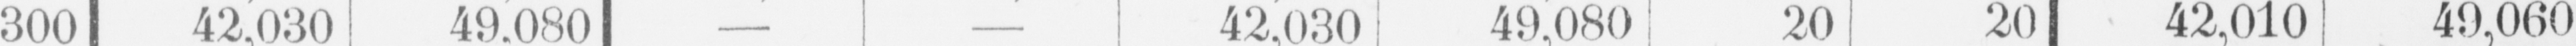300 42,030 49,080 — — 42,030 49,080 20 20 42,010 49,060
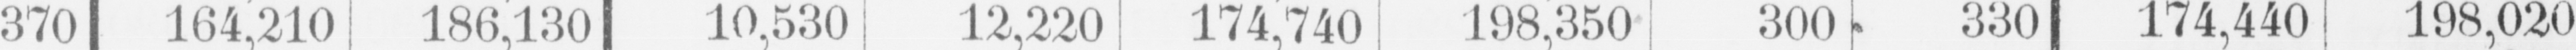370 164,210 186,130 10,530 12,220 174,740 198,350 300 330 174,440 198,020
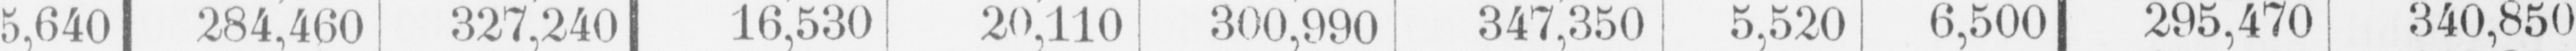5,640 284,460 327,240 16,530 20,110 300,990 347,350 5,520 6,500 295,470 340,850
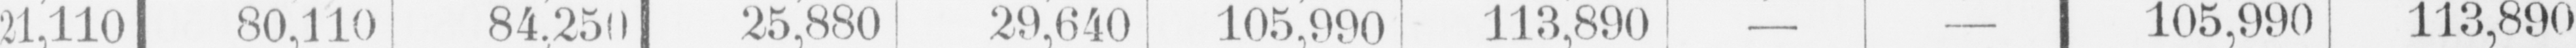21.110 80,110 84,250 25,880 29,640 105,990 113,890 — — 105,990 113,890
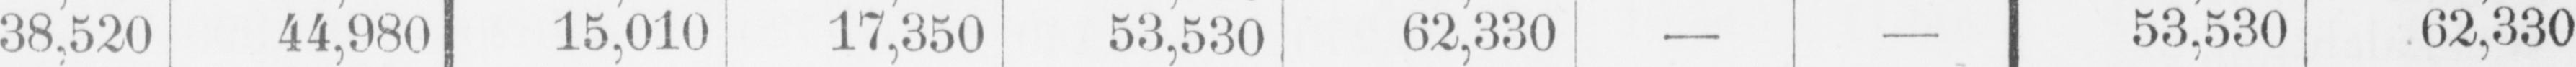— 38,520 44,980 15,010 17,350 53,530, 62,330 — — 53,530 62,330
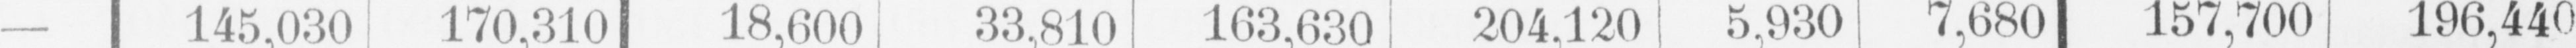— 145,030 170,310 18,600 33,810 163,630 204,120 5,930 7,680 157,700 196,440
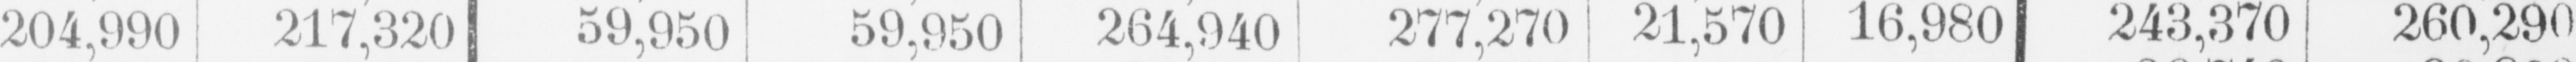— 204,990 217,320 59,950 59,950 264,940 277,270 21,570 16,980 243,370 260,290
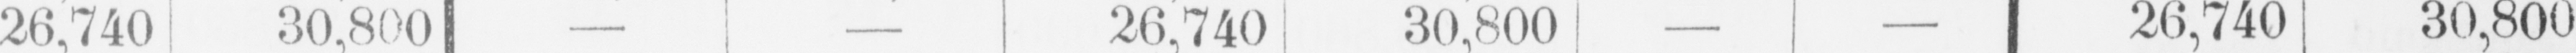— 26,740 30,800 — — 26,740 30,800 — — 26,740 30,800
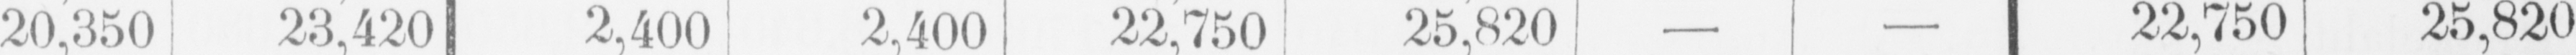— 20,350 23,420 2,400 2,400 22,750 25,820 — — 22,750 25,820
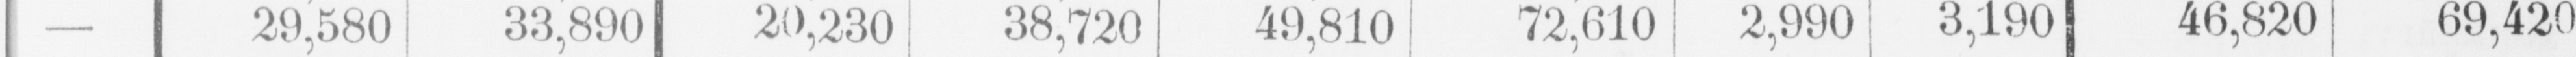— 29,580 33,890 20,230 38,720 49,810 72,610 2,990 3,190 46,820 69,420
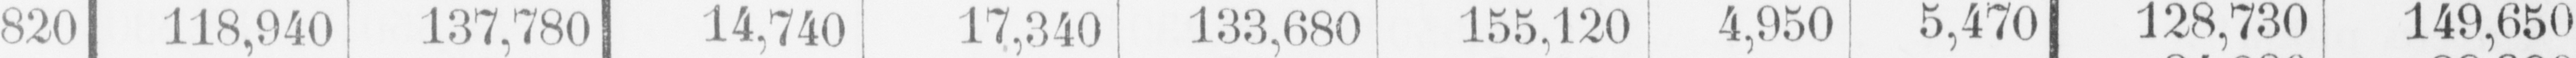820 118,940 137,780 14,740 17,340 133,680 155,120 4,950 5,470 128,730 149,650
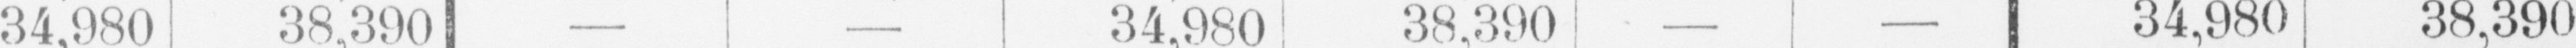— 34,980 38,390 — — 34,980 38,390 — — 34,980 38,390
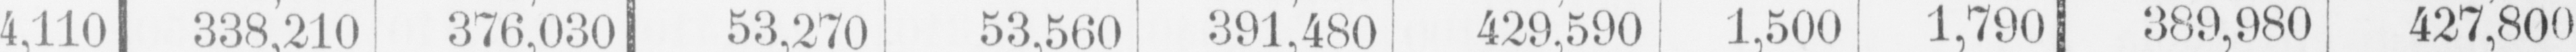4,110 338,210 376,030 53,270 53,560 391,480 429,590 1,500 1,790 389,980 427,800
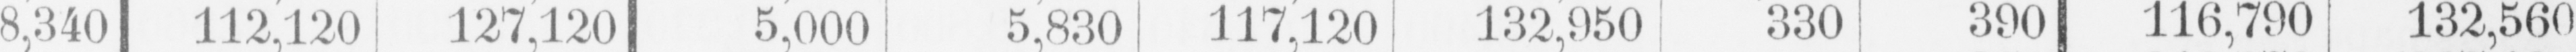8,340 112,120 127,120 5,000 5,830 117,120 132,950 330 390 116,790 132,560
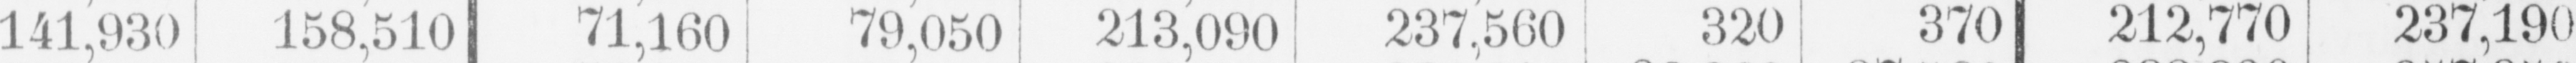— 141,930 158,510 71,160 79,050 213,090 237,560 320 370 212,770 237,190
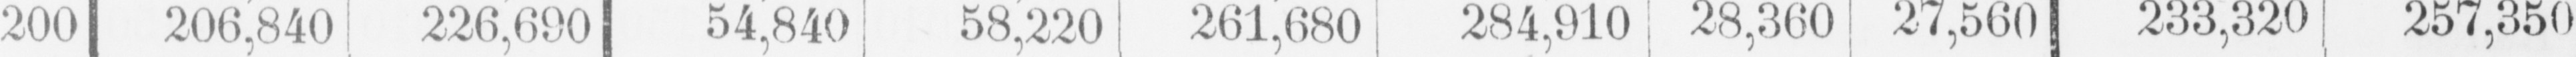200 206,840 226,690 54,840 58,220 261,680 284,910 28,360 27,560 233,320 257,350
